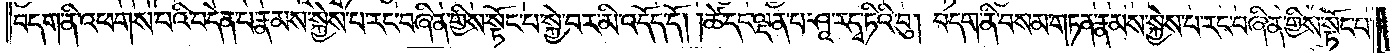བདག་ནི་འཕགས་པའི་བདེན་པ་རྣམས་སྐྱེས་པ་རང་བཞིན་གྱིས་སྟོང་པ་སྐྱེ་བར་མི་འདོད་དོ། །ཚེ་དང་ལྡན་པ་ཤཱ་ར་དྭ་ཏིའི་བུ། བདག་ནི་བསམ་གཏན་རྣམས་སྐྱེས་པ་རང་བཞིན་གྱིས་སྟོང་པ་
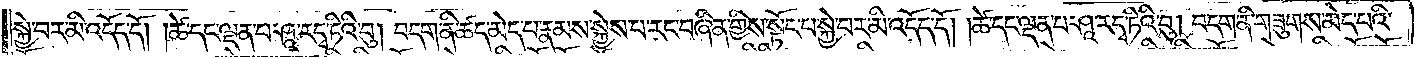སྐྱེ་བར་མི་འདོད་དོ། །ཚེ་དང་ལྡན་པ་ཤཱ་ར་དྭ་ཏིའི་བུ། བདག་ནི་ཚད་མེད་པ་རྣམས་སྐྱེས་པ་རང་བཞིན་གྱིས་སྟོང་པ་སྐྱེ་བར་མི་འདོད་དོ། །ཚེ་དང་ལྡན་པ་ཤཱ་ར་དྭ་ཏིའི་བུ། བདག་ནི་གཟུགས་མེད་པའི་
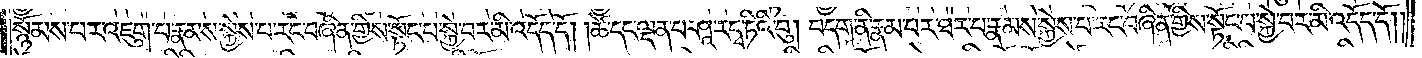སྙོམས་པར་འཇུག་པ་རྣམས་སྐྱེས་པ་རང་བཞིན་གྱིས་སྟོང་པ་སྐྱེ་བར་མི་འདོད་དོ། །ཚེ་དང་ལྡན་པ་ཤཱ་ར་དྭ་ཏིའི་བུ། བདག་ནི་རྣམ་པར་ཐར་པ་རྣམས་སྐྱེས་པ་རང་བཞིན་གྱིས་སྟོང་པ་སྐྱེ་བར་མི་འདོད་དོ། །
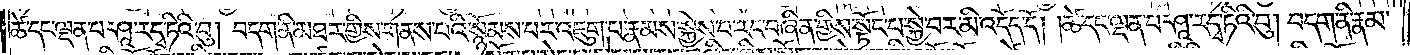ཚེ་དང་ལྡན་པ་ཤཱ་ར་དྭ་ཏིའི་བུ། བདག་ནི་མཐར་གྱིས་གནས་པའི་སྙོམས་པར་འཇུག་པ་རྣམས་སྐྱེས་པ་རང་བཞིན་གྱིས་སྟོང་པ་སྐྱེ་བར་མི་འདོད་དོ། །ཚེ་དང་ལྡན་པ་ཤཱ་ར་དྭ་ཏིའི་བུ། བདག་ནི་རྣམ་
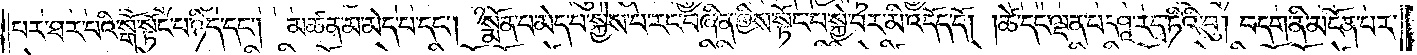པར་ཐར་པའི་སྒོ་སྟོང་པ་ཉིད་དང༌། མཚན་མ་མེད་པ་དང༌། སྨོན་པ་མེད་པ་སྐྱེས་པ་རང་བཞིན་གྱིས་སྟོང་པ་སྐྱེ་བར་མི་འདོད་དོ། །ཚེ་དང་ལྡན་པ་ཤཱ་ར་དྭ་ཏིའི་བུ། བདག་ནི་མངོན་པར་
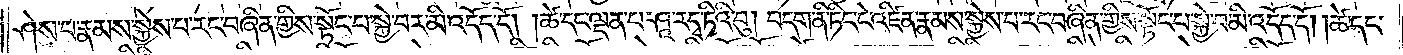ཤེས་པ་རྣམས་སྐྱེས་པ་རང་བཞིན་གྱིས་སྟོང་པ་སྐྱེ་བར་མི་འདོད་དོ། །ཚེ་དང་ལྡན་པ་ཤཱ་ར་དྭ་ཏིའི་བུ། བདག་ནི་ཏིང་ངེ་འཛིན་རྣམས་སྐྱེས་པ་རང་བཞིན་གྱིས་སྟོང་པ་སྐྱེ་བར་མི་འདོད་དོ། །ཚེ་དང་
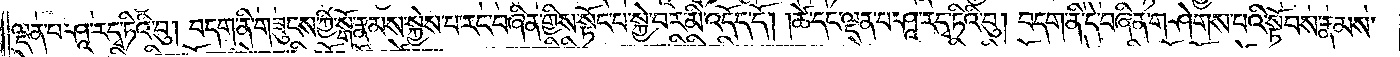ལྡན་པ་ཤཱ་ར་དྭ་ཏིའི་བུ། བདག་ནི་གཟུངས་ཀྱི་སྒོ་རྣམས་སྐྱེས་པ་རང་བཞིན་གྱིས་སྟོང་པ་སྐྱེ་བར་མི་འདོད་དོ། །ཚེ་དང་ལྡན་པ་ཤཱ་ར་དྭ་ཏིའི་བུ། བདག་ནི་དེ་བཞིན་གཤེགས་པའི་སྟོབས་རྣམས་
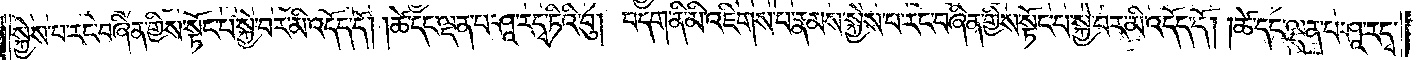སྐྱེས་པ་རང་བཞིན་གྱིས་སྟོང་པ་སྐྱེ་བར་མི་འདོད་དོ། །ཚེ་དང་ལྡན་པ་ཤཱ་ར་དྭ་ཏིའི་བུ། བདག་ནི་མི་འཇིགས་པ་རྣམས་སྐྱེས་པ་རང་བཞིན་གྱིས་སྟོང་པ་སྐྱེ་བར་མི་འདོད་དོ། །ཚེ་དང་ལྡན་པ་ཤཱ་ར་དྭ་
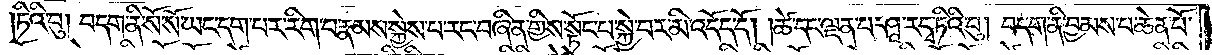ཏིའི་བུ། བདག་ནི་སོ་སོ་ཡང་དག་པར་རིག་པ་རྣམས་སྐྱེས་པ་རང་བཞིན་གྱིས་སྟོང་པ་སྐྱེ་བར་མི་འདོད་དོ། །ཚེ་དང་ལྡན་པ་ཤཱ་ར་དྭ་ཏིའི་བུ། བདག་ནི་བྱམས་པ་ཆེན་པོ་
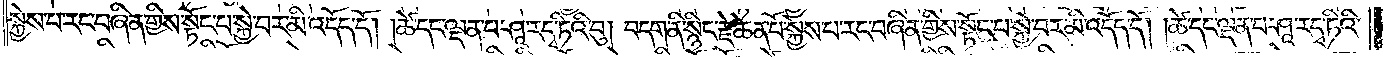སྐྱེས་པ་རང་བཞིན་གྱིས་སྟོང་པ་སྐྱེ་བར་མི་འདོད་དོ། །ཚེ་དང་ལྡན་པ་ཤཱ་ར་དྭ་ཏིའི་བུ། བདག་ནི་སྙིང་རྗེ་ཆེན་པོ་སྐྱེས་པ་རང་བཞིན་གྱིས་སྟོང་པ་སྐྱེ་བར་མི་འདོད་དོ། །ཚེ་དང་ལྡན་པ་ཤཱ་ར་དྭ་ཏིའི་
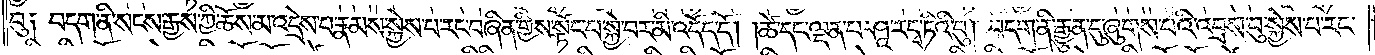བུ༏ བདག་ནི་སངས་རྒྱས་ཀྱི་ཆོས་མ་འདྲེས་པ་རྣམས་སྐྱེས་པ་རང་བཞིན་གྱིས་སྟོང་པ་སྐྱེ་བར་མི་འདོད་དོ། །ཚེ་དང་ལྡན་པ་ཤཱ་ར་དྭ་ཏིའི་བུ། བདག་ནི་རྒྱུན་དུ་ཞུགས་པའི་འབྲས་བུ་སྐྱེས་པ་རང་
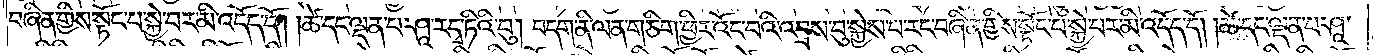བཞིན་གྱིས་སྟོང་པ་སྐྱེ་བར་མི་འདོད་དོ། །ཚེ་དང་ལྡན་པ་ཤཱ་ར་དྭ་ཏིའི་བུ། བདག་ནི་ལན་ཅིག་ཕྱིར་འོང་བའི་འབྲས་བུ་སྐྱེས་པ་རང་བཞིན་གྱིས་སྟོང་པ་སྐྱེ་བར་མི་འདོད་དོ། །ཚེ་དང་ལྡན་པ་ཤཱ་
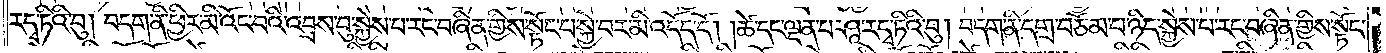ར་དྭ་ཏིའི་བུ། བདག་ནི་ཕྱིར་མི་འོང་བའི་འབྲས་བུ་སྐྱེས་པ་རང་བཞིན་གྱིས་སྟོང་པ་སྐྱེ་བར་མི་འདོད་དོ། །ཚེ་དང་ལྡན་པ་ཤཱ་ར་དྭ་ཏིའི་བུ། བདག་ནི་དགྲ་བཅོམ་པ་ཉིད་སྐྱེས་པ་རང་བཞིན་གྱིས་སྟོང་
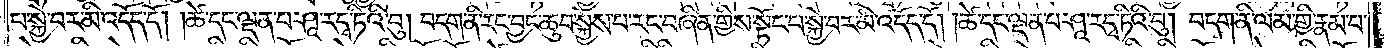པ་སྐྱེ་བར་མི་འདོད་དོ། །ཚེ་དང་ལྡན་པ་ཤཱ་ར་དྭ་ཏིའི་བུ། བདག་ནི་རང་བྱང་ཆུབ་སྐྱེས་པ་རང་བཞིན་གྱིས་སྟོང་པ་སྐྱེ་བར་མི་འདོད་དོ། །ཚེ་དང་ལྡན་པ་ཤཱ་ར་དྭ་ཏིའི་བུ། བདག་ནི་ལམ་གྱི་རྣམ་
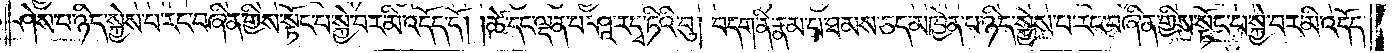ཤེས་པ་ཉིད་སྐྱེས་པ་རང་བཞིན་གྱིས་སྟོང་པ་སྐྱེ་བར་མི་འདོད་དོ། །ཚེ་དང་ལྡན་པ་ཤཱ་ར་དྭ་ཏིའི་བུ། བདག་ནི་རྣམ་པ་ཐམས་ཅད་མཁྱེན་པ་ཉིད་སྐྱེས་པ་རང་བཞིན་གྱིས་སྟོང་པ་སྐྱེ་བར་མི་འདོད་
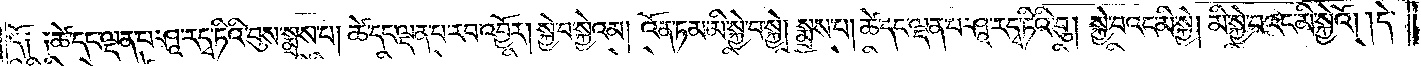དོ༏ ༏ཚེ་དང་ལྡན་པ་ཤཱ་ར་དྭ་ཏིའི་བུས་སྨྲས་པ། ཚེ་དང་ལྡན་པ་རབ་འབྱོར། སྐྱེ་བ་སྐྱེའམ། འོན་ཏམ་མི་སྐྱེ་བ་སྐྱེ། སྨྲས་པ། ཚེ་དང་ལྡན་པ་ཤཱ་ར་དྭ་ཏིའི་བུ། སྐྱེ་བའང་མི་སྐྱེ། མི་སྐྱེ་བའང་མི་སྐྱེའོ། །དེ་
